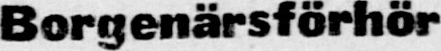Borgenärsförhör
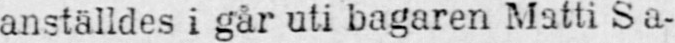anställdes i går uti bagaren Matti Sa-
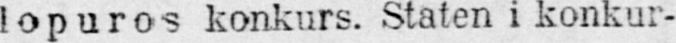lopuros konkurs. Staten i konkur-
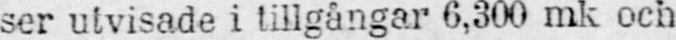ser utvisade i tillgångar 6,300 mk och
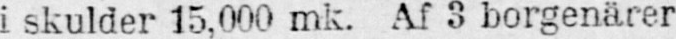i skulder 15,000 mk. Af 3 borgenärer
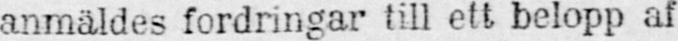anmäldes fordringar till ett belopp af
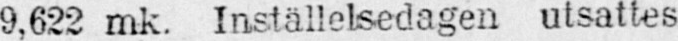9,622 mk. Inställelsedagen utsattes
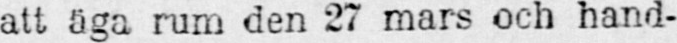att äga rum den 27 mars och hand-
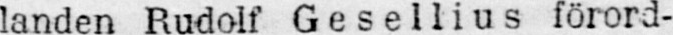landen Rudolf Gesellius förord-
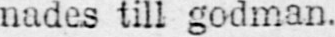nades till godman.
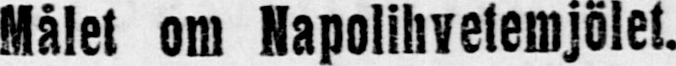Målet om Napolihvetemjölet.
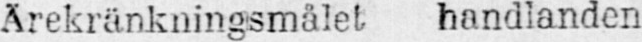Ärekränkningsmålet handlanden
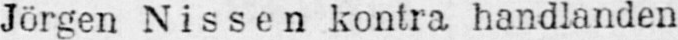Jörgen Nissen kontra handlanden
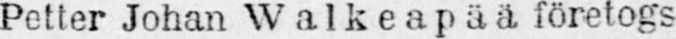Petter Johan Walkeapää företogs
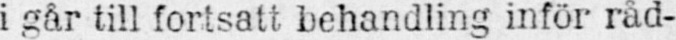i går till fortsatt behandling inför råd-
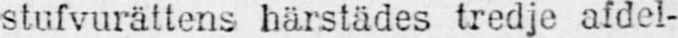stufvurättens härstädes tredje afdel-
